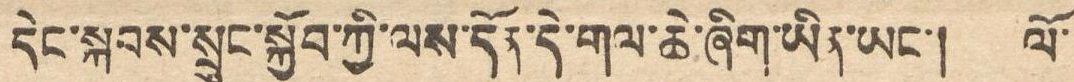དེང་སྐབས་སྲུང་སྐྱོབ་ཀྱི་ལས་དོན་དེ་གལ་ཆེ་ཞིག་ཡིན་ཡང་། ལོ་
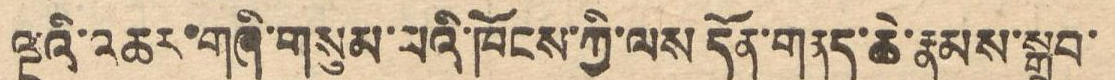ལྔའི་འཆར་གཞི་གསུམ་པའི་ཁོངས་ཀྱི་ལས དོན་གནད་ཆེ་རྣམས་སྒྲུབ་
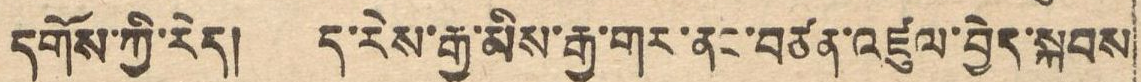དགོས་ཀྱི་རེད། ད་རེས་རྒྱ་མིས་རྒྱ་གར་ནང་བཙན་འཛུལ་བྱེད་སྐབས
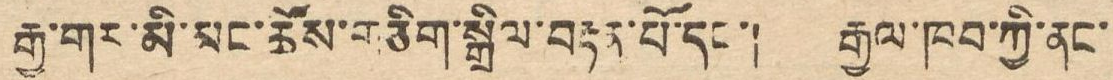རྒྱ་གར་མི་མང་ཚོས་གཅིག་སྒྲིལ་བརྟན་པོ་དང་། རྒྱལ་ཁབ་ཀྱི་ནང་
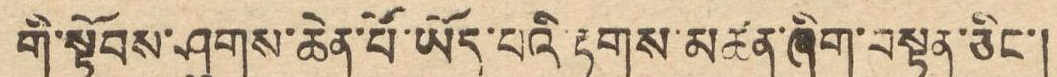གི་སྟོབས་ཤུགས་ཆེན་པོ་ཡོད་པའི་རྟགས་མཚན་ཞིག་བསྟན་ཅིང་།
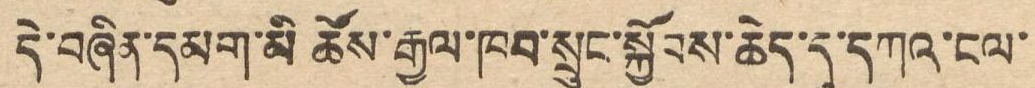དེ་བཞིན་དམག་མི ཚོས་རྒྱལ་ཁབ་སྲུང་སྐྱོབས་ཆེད་དུ་དཀའ་ངལ་
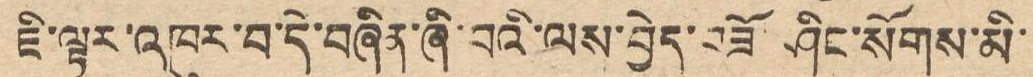ཇི་ལྟར་འཁུར་བ་དེ་བཞིན་ཞི་བའི་ལས་བྱེད་བཟོ་ཤིང་སོགས་མི་
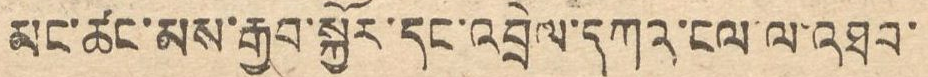མང་ཚང་མས་རྒྱབ་སྐྱོར་དང་འབྲེལ་དཀའ་ངལ་ལ་འཐབ་
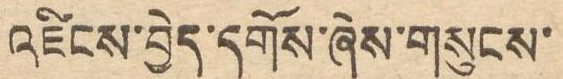འཛིངས་བྱེད་དགོས་ཞེས་གསུངས་
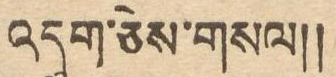འདུག་ཅེས་གསལ།།
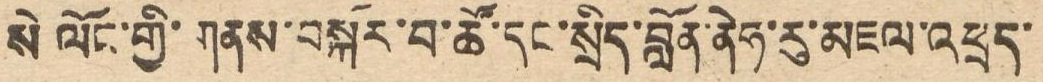སེ ལོང་གྱི་གནས་བསྐོར་བ་ཚོ་དང་སྲིད་བློན་ནེཧ་རུ་མཇའ་འཕྲད་
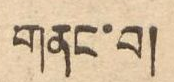གནང་བ།
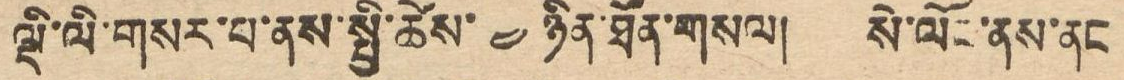ལྡི་ལི་གསར་པ་ནས་སྤྱི་ཚེས་ ༤ ཉིན་ཐོན་གསལ། སེ་ལོང་ནས་ནང
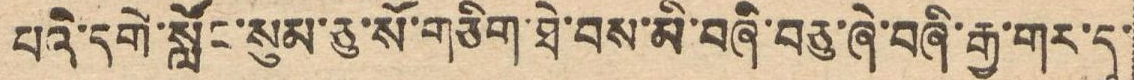པའི་དགེ་སློང་སུམ་ཅུ་སོ་གཅིག་ཐེ་བས་མི་བཞི་བཅུ་ཞེ་བཞི་རྒྱ་གར་དུ་
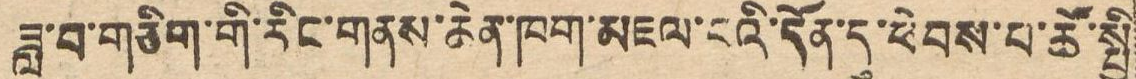ཟླ་བ་གཅིག་གི་རིང་གནས་ཆེན་ཁག་མཇལ་ངའི་དོན་དུ་ཕེབས་པ་ཚོ་སྤྱི
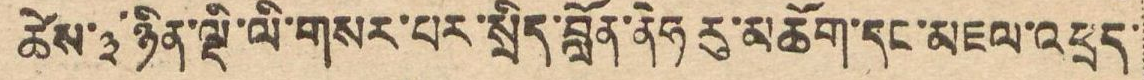ཚེས་ ༣ ཉིན་ལྡི་ལི་གསར་པར་སྲིད་བློན་ནེཧརུ་མཆོག་དང་མཇལ་འཕྲད་
